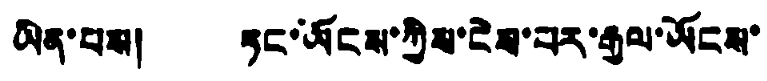ཡིན་པས། ཏང་ཡོངས་ཀྱིས་ངེས་པར་རྒྱལ་ཡོངས་
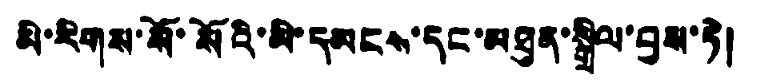མི་རིགས་སོ་སོའི་མི་དམངས་དང་མཐུན་སྒྲིལ་བྱས་ཏེ།
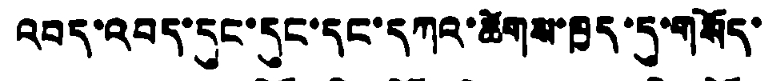འབད་འབད་དུང་དུང་དང་དཀའ་ཚེགས་ཁྱད་དུ་གསོད་
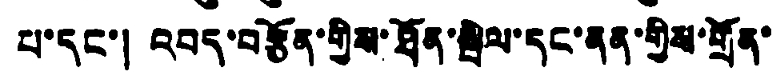པ་དང་། འབད་བརྩོན་གྱིས་ཐོན་སྤེལ་དང་ནན་གྱིས་གྲོན་
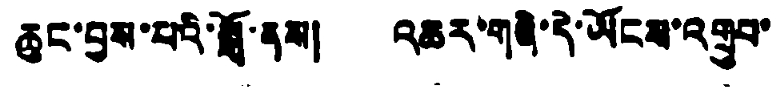ཆུང་བྱས་པའི་སྒོ་ནས། འཆར་གཞི་དེ་ཡོངས་འགྲུབ་
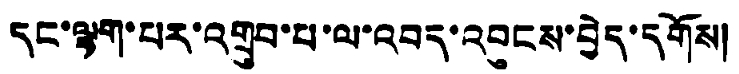དང་ལྷག་པར་འགྲུབ་པ་ལ་འབད་འབུངས་བྱེད་དགོས།
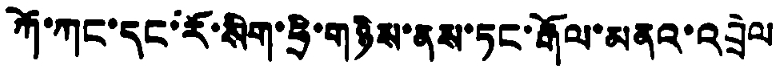ཀོ་ཀང་དང་རོ་སིག་ཧྲི་གཉིས་ནས་ཏང་རྒོལ་མནའ་འབྲེལ
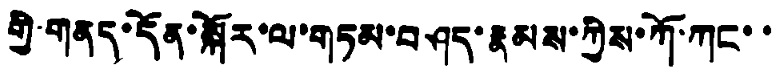གྱི་གནད་དོན་སྐོར་ལ་གཏམ་བཤད་རྣམས་ཀྱིས་ཀོ་ཀང་་
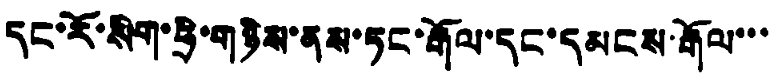དང་རོ་སིག་ཧྲི་གཉིས་ནས་ཏང་རྒོལ་དང་དམངས་རྒོལ་་་
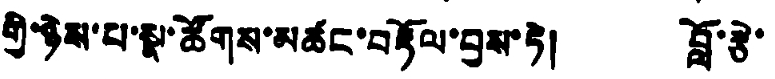གྱི་ཉེས་པ་སྣ་ཚོགས་མཚང་བརྟོལ་བྱས་ཏེ། བློ་རྩེ་
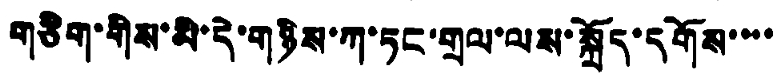གཅིག་གིས་མི་དེ་གཉིས་ཀ་ཏང་གྲལ་ལས་སྐྱོད་དགོས་་་་
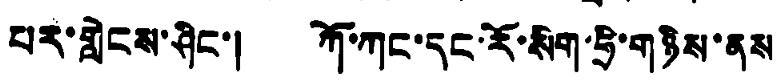པར་གླེངས་ཤིང་། ཀོ་ཀང་དང་རོ་སིག་ཧྲི་གཉིས་ནས
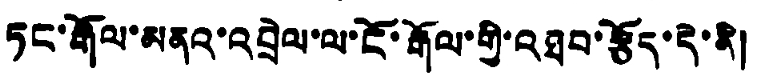ཏང་རྒོལ་མནའ་འབྲེལ་ལ་ངོ་རྒོལ་གྱི་འཐབ་རྩོད་དེ་ནི།
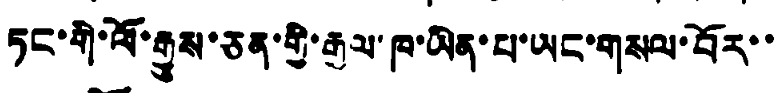ཏང་གི་ལོ་རྒྱུས་ཅན་གྱི་རྒྱལ་ཁ་ཡིན་པ་ཡང་གསལ་བོར་་
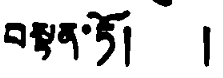བསྟན་ཏོ། །
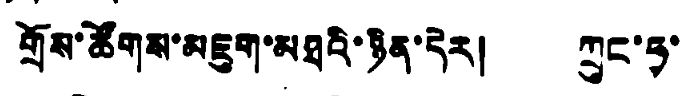གྲོས་ཚོགས་མཇུག་མཐའི་ཉིན་དེར། ཀྲུང་ཧྭ་
